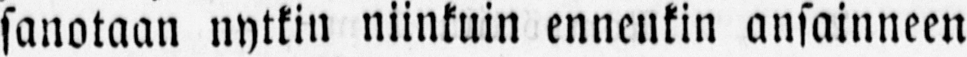sanotaan nytkin niinkuin ennenkin ansainneen
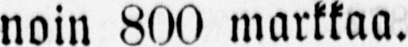noin 800 markkaa.
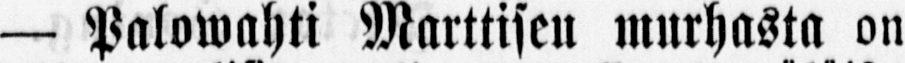— Palowahti Marttisen murhasta on
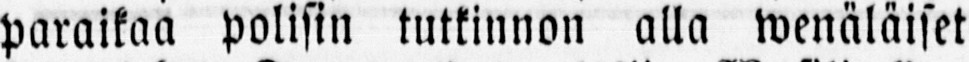paraikaa polisin tutkinnon alla wenäläiset
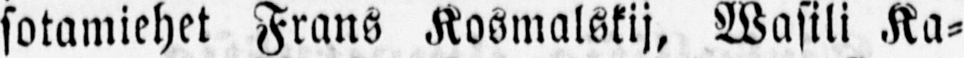sotamiehet Frans Kosmalskij, Wasili Ka-
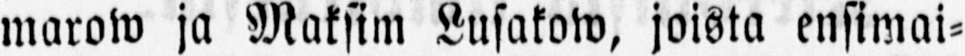maroin ja Maksim Lusakow, joista ensimai-
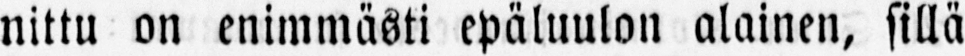nittu on enimmästi epäluulon alainen, sillä
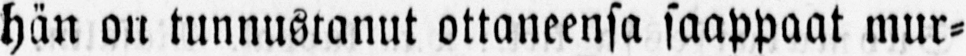hän on tunnustanut ottaneensa saappaat mur-
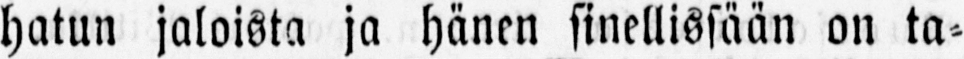hatun jaloista ja hänen sinellissään on ta-
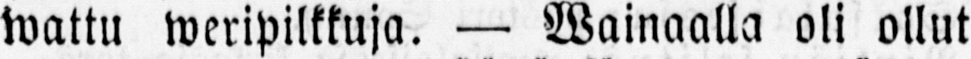wattu weripilkkuja. — Wainaalla oli ollut
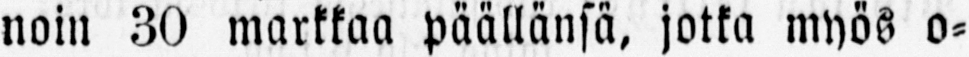noin 30 markkaa päällänsä, jotka myös o-
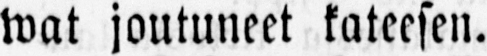wat joutuneet kateesen.
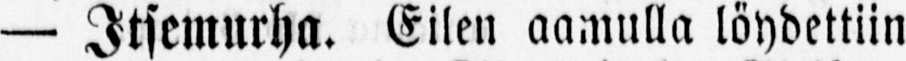— Itsemurha. Eilen aamulla löydettiin
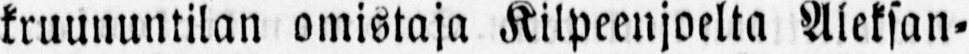kruununtilan omistaja Kilpeenjoelta Aleksan-
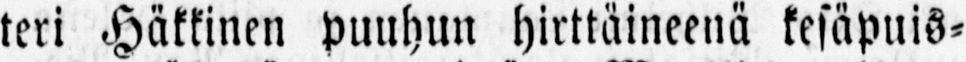teri Häkkinen puuhun hirttäineenä kesäpuis-
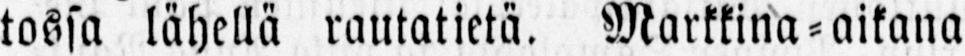tossa lähellä rautatietä. Markkina-aikana
